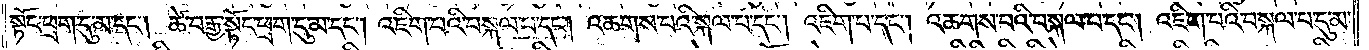སྟོང་ཕྲག་དུ་མ་དང༌། ཚེ་བརྒྱ་སྟོང་ཕྲག་དུ་མ་དང༌། འཇིག་པའི་བསྐལ་པ་དང༌། འཆགས་པའི་སྐལ་པ་དང༌། འཇིག་པ་དང༌། འཆགས་པའི་བསྐལ་པ་དང༌། འཇིག་པའི་བསྐལ་པ་དུ་མ་
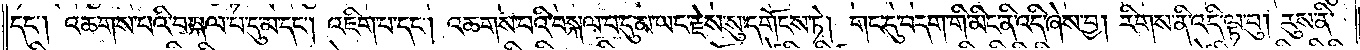དང༌། འཆགས་པའི་བསྐལ་པ་དུ་མ་དང༌། འཇིག་པ་དང༌། འཆགས་པའི་བསྐལ་པ་དུ་མ་ཡང་རྗེས་སུ་དགོངས་ཏེ། གང་དུ་བདག་གི་མིང་ནི་འདི་ཞེས་བྱ། རིགས་ནི་འདི་ལྟ་བུ། རུས་ནི་
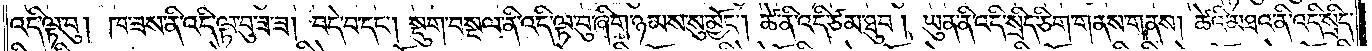འདི་ལྟ་བུ། ཁ་ཟས་ནི་འདི་ལྟ་བུ་ཟ་ཟ། བདེ་བ་དང༌། སྡུག་བསྔལ་ནི་འདི་ལྟ་བུ་ཞིག་ཉམས་སུ་མྱོང༌། ཚེ་ནི་འདི་ཙམ་ཐུབ། ཡུན་ནི་འདི་སྲིད་ཅིག་གནས་གནས། ཚེའི་མཐའ་ནི་འདི་སྲིད་
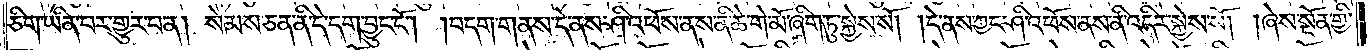ཅིག་ཡིན་པར་གྱུར་པ་ན། སེམས་ཅན་ནི་དེ་དག་བྱུང་ངོ༌། །བདག་གནས་དེ་ནས་ཤི་འཕོས་ནས་ནི་ཆེ་གེ་མོ་ཞིག་ཏུ་སྐྱེས་སོ། །དེ་ནས་ཀྱང་ཤི་འཕོས་ནས་ནི་འདིར་སྐྱེས་སོ། །ཞེས་སྔོན་གྱི་
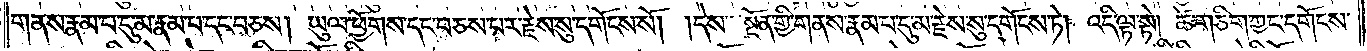གནས་རྣམ་པ་དུ་མ་རྣམ་པ་དང་བཅས། ཡུལ་ཕྱོགས་དང་བཅས་པར་རྗེས་སུ་དགོངས་སོ། །དེས་སྔོན་གྱི་གནས་རྣམ་པ་དུ་མ་རྗེས་སུ་དགོངས་ཏེ། འདི་ལྟ་སྟེ། ཚེ་གཅིག་ཀྱང་དགོངས་
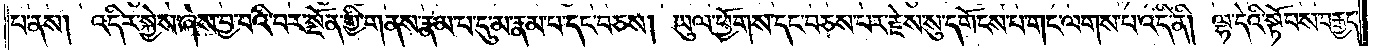པ་ནས། འདིར་སྐྱེས་ཞེས་བྱ་བའི་བར་སྔོན་གྱི་གནས་རྣམ་པ་དུ་མ་རྣམ་པ་དང་བཅས། ཡུལ་ཕྱོགས་དང་བཅས་པར་རྗེས་སུ་དགོངས་པ་གང་ལགས་པ་འདི་ནི། ལྷ་དེའི་སྟོབས་བརྒྱད་
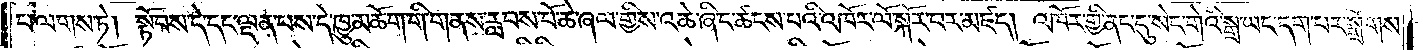པ་ལགས་ཏེ། སྟོབས་དེ་དང་ལྡན་པས་དེ་ཁྱུ་མཆོག་གི་གནས་རླབས་པོ་ཆེ་ཞལ་གྱིས་འཆེ་ཞིང་ཚངས་པའི་འཁོར་ལོ་སྐོར་བར་མཛད། འཁོར་གྱི་ནང་དུ་སེང་གེའི་སྒྲ་ཡང་དག་པར་སྒྲོགས་
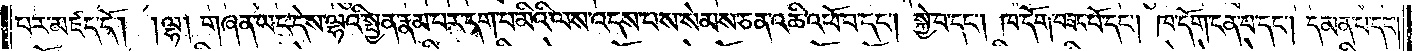པར་མཛད་དོ། །ལྷ། གཞན་ཡང་དེས་ལྷའི་སྤྱན་རྣམ་པར་དག་པ་མིའི་ལས་འདས་པས་སེམས་ཅན་འཆི་འཕོ་བ་དང༌། སྐྱེ་བ་དང༌། ཁ་དོག་བཟང་པོ་དང༌། ཁ་དོག་ངན་པ་དང༌། དམན་པ་དང༌།
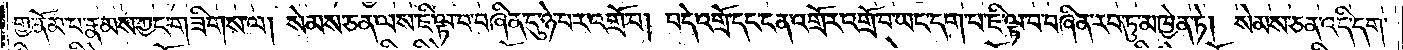གྱ་ནོམ་པ་རྣམས་ཀྱང་གཟིགས་ལ། སེམས་ཅན་ལས་ཇི་ལྟ་བ་བཞིན་དུ་ཉེ་བར་འགྲོ་བ། བདེ་འགྲོ་དང་ངན་འགྲོར་འགྲོ་བ་ཡང་དག་པ་ཇི་ལྟ་བ་བཞིན་རབ་ཏུ་མཁྱེན་ཏེ། སེམས་ཅན་འདི་དག་
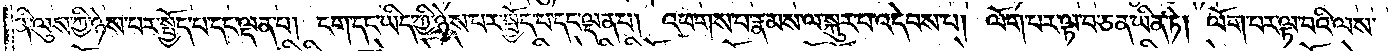ནི་ལུས་ཀྱི་ཉེས་པར་སྤྱོད་པ་དང་ལྡན་པ། ངག་དང་ཡིད་ཀྱི་ཉེས་པར་སྤྱོད་པ་དང་ལྡན་པ། འཕགས་པ་རྣམས་ལ་སྐུར་པ་འདེབས་པ། ལོག་པར་ལྟ་བ་ཅན་ཡིན་ཏེ། ལོག་པར་ལྟ་བའི་ལས་
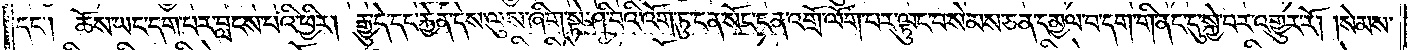དང༌། ཆོས་ཡང་དག་པར་བླངས་པའི་ཕྱིར། རྒྱུ་དེ་དང་རྐྱེན་དེས་ལུས་ཞིག་སྟེ་ཤི་བའི་འོག་ཏུ་ངན་སོང་ངན་འགྲོ་ལོག་པར་ལྟུང་བ་སེམས་ཅན་དམྱལ་བ་དག་གི་ནང་དུ་སྐྱེ་བར་འགྱུར་རོ། །སེམས་
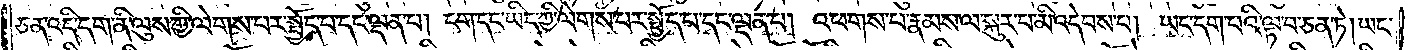ཅན་འདི་དག་ནི་ལུས་ཀྱི་ལེགས་པར་སྤྱོད་པ་དང་ལྡན་པ། ངག་དང་ཡིད་ཀྱི་ལེགས་པར་སྤྱོད་པ་དང་ལྡན་པ། འཕགས་པ་རྣམས་ལ་སྐུར་པ་མི་འདེབས་པ། ཡང་དག་པའི་ལྟ་བ་ཅན་ཏེ། ཡང་
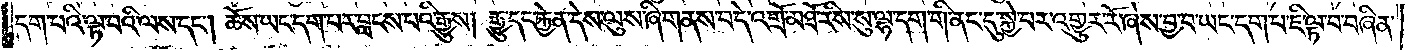དག་པའི་ལྟ་བའི་ལས་དང༌། ཆོས་ཡང་དག་པར་བླངས་པའི་རྒྱུས། རྒྱུ་དང་རྐྱེན་དེས་ལུས་ཞི་གནས་བདེ་འགྲོ་མཐོ་རིས་སུ་ལྷ་དག་གི་ནང་དུ་སྐྱེ་བར་འགྱུར་རོ་ཞེས་བྱ་བ་ཡང་དག་པ་ཇི་ལྟ་བ་བཞིན་
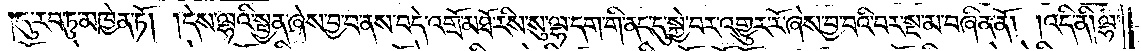དུ་རབ་ཏུ་མཁྱེན་ཏོ། །དེས་ལྷའི་སྤྱན་ཞེས་བྱ་བ་ནས་བདེ་འགྲོ་མཐོ་རིས་སུ་ལྷ་དག་གི་ནང་དུ་སྐྱེ་བར་འགྱུར་རོ་ཞེས་བྱ་བའི་བར་སྔ་མ་བཞིན་ནོ། །འདི་ནི། ལྷ་
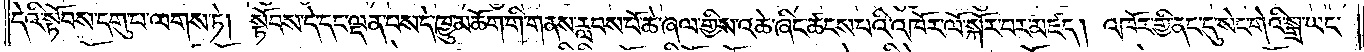དེའི་སྟོབས་དགུ་པ་ལགས་ཏེ། སྟོབས་དེ་དང་ལྡན་པས་དེ་ཁྱུ་མཆོག་གི་གནས་རླབས་པོ་ཆེ་ཞལ་གྱིས་འཆེ་ཞིང་ཚངས་པའི་འཁོར་ལོ་སྐོར་བར་མཛད། འཁོར་གྱི་ནང་དུ་སེང་གེའི་སྒྲ་ཡང་
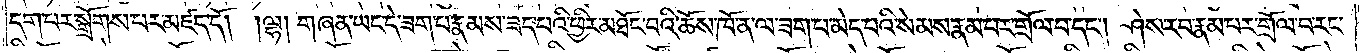དག་པར་སྒྲོགས་པར་མཛད་དོ། །ལྷ། གཞན་ཡང་དེ་ཟག་པ་རྣམས་ཟད་པའི་ཕྱིར་མཐོང་བའི་ཆོས་ཁོ་ན་ལ་ཟག་པ་མེད་པའི་སེམས་རྣམ་པར་གྲོལ་བ་དང༌། ཤེས་རབ་རྣམ་པར་གྲོལ་བ་རང་
